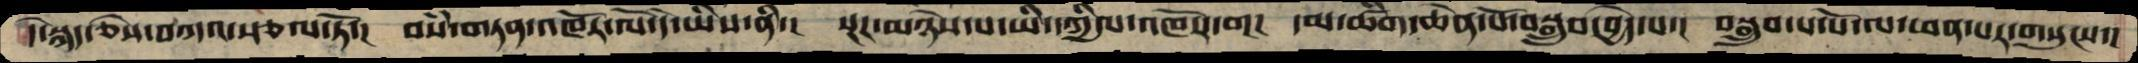དེ་སྐད་ཅེས་བཀའ་སྩལ་ཏོ་།  བསཾ་གཏན་འཁོར་ལོ་དེ་ཡིས་ནི་།  སྔཌ་མཉེས་པ་ཡི་དཀྱིལ་འཁོར་བ།།།  དམ་ཚིག་ཆེན་པོ་བསྒྲུབ་བྱེད་པ་།  བསྒྲུབ་པ་པོ་ལ་ཕན་པར་གསུངས་།
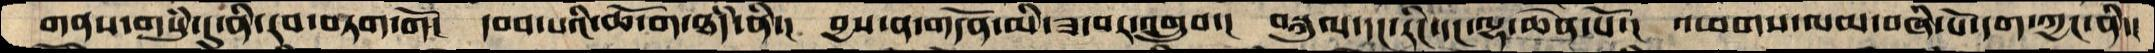གནས་གསུཾ་དུ་ནི་རབ་བཏག་གོ།  དབབ་པའི་ཆོ་ག་ཐཾད་ནི་།  བྱས་ན་གདོན་མི་ཟ་བར་འགྲུབ་།  བསྐུལ་དང་རིང་དང་ལྷ་ཆེན་པོ་།  འཕགས་ལམ་བཞི་པོ་དག་ཀྱང་ནི་།
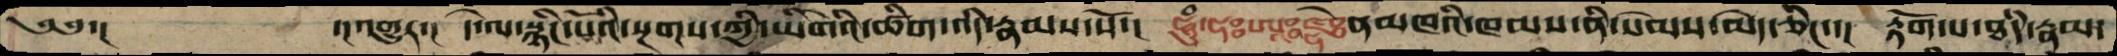༄༅་།     ་། འགྱུར་།  དེ་ལ་སྙིང་པོའི་སྔགས་ཀྱི་ཡིགེའི་ཚིག་འདི་རྣམས་སོ་།  ཧཱུཾ་ཧཿཨཱཿཛྷེཿནམཁའི་ཁམས་ནི་སེམས་མེད་ཅིང་་།  རྟོག་པ་ཐཾད་རྣམ་
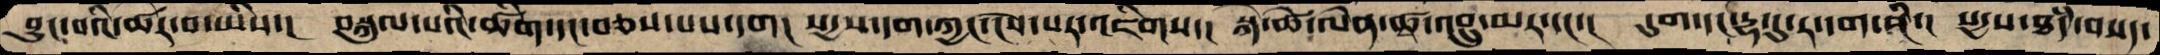བྱུང་བའི་ཚར་བ་ཡིས་།  བསྐུལ་པའི་ཚིག་དང་བཅས་པས་དག།  སདྱས་དག་ཀྱང་ངེས་པར་འཇིགས་།  སྐེ་ཚེ་ལེན་ཚྭ་འབྲུ་མར་དང་།  དུག་དང་དྷ་དུ་ར་དག་ནི་།  སདྱས་ཐཾད་བསད་
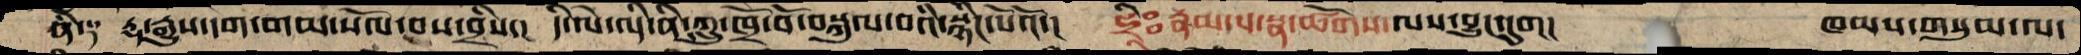ནི༑   རྡ་རྒྱུས་དག་གམ་སོལ་བས་བྲིས་།  དི་ལེ་འདི་ནི་ཀླུ་ཁྲོ་བོ་བསྐུལ་བའི་སྙིང་པོའོ་།   ཧྲཱིཿ རྣམ་པ་སྣ་ཚོགས་ལས་བྱུང་དུག།      ཁམས་གསུམ་ལ་
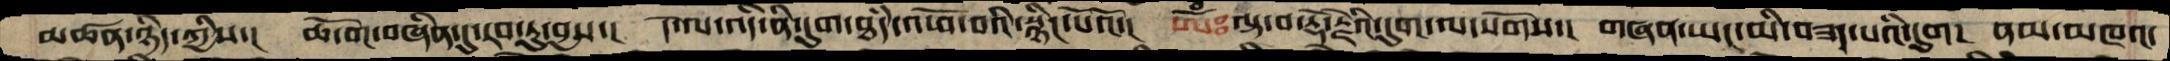མཚན་ཉིད་ཀྱིས་།  ཆོ་ག་བཞིན་དུ་རབ་ཏུ་བྱས་།  དེ་ལ་འདི་ནི་དུག་ཐཾད་འཕོ་བའི་སྙིང་པོའོ་།  ཨོཾ་ལྟ་བ་རྡོ་རྗེའི་དུག་ལ་སོགས་།  གཞན་ཡང་མི་བཟད་པའི་དུག།  ནམ་མཁའ་
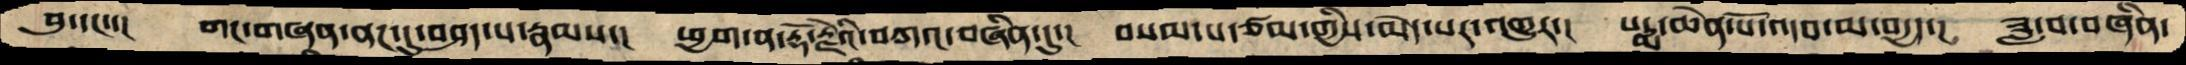བུ་དང་་།  གང་གཞན་ནང་དུ་བཤད་པ་རྣམས་།  ཕྱག་ན་རྡོ་རྗེའི་བཀའ་བཞིན་དུ་།  བསམ་པ་ཙམ་གྱིས་མེད་པར་འགྱུར་།  པདྨ་ཆེན་པོ་འདབ་མ་བདྱད་།  ཟླ་བ་བཞིན་
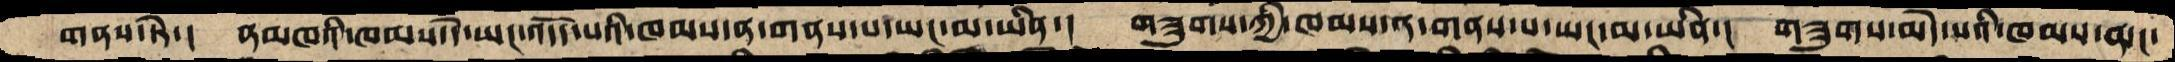གནས་ཏེ་།   ནམཁའི་ཁམས་དེ་ཡང་འདོད་པའི་ཁམས་ན་གནས་པ་ཡང་མ་ཡིན་།   གཟུགས་ཀྱི་ཁམས་ན་གནས་པ་ཡང་མ་ཡིན་།  གཟུགས་མེད་པའི་ཁམས་ན་།
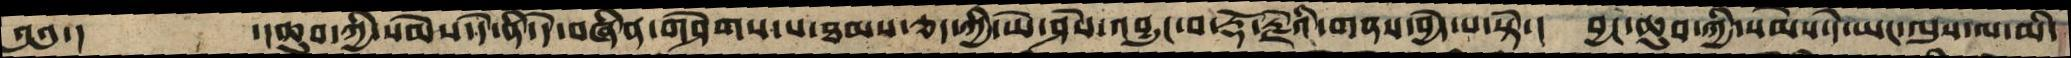༄༅་།        ་།ཆུབ་ཀྱི་སེམས་དེ་ནི་དེ་བཞིན་གཤེགས་པ་ཐམས་ཅད་ཀྱི་ཡེ་ཤེས་འབྱུང་བ་རྡོ་རྗེའི་གནས་བྱེད་པ་སྟེ་།   བྱང་ཆུབ་ཀྱི་སེམས་དེ་ཡང་ལུས་ལ་མི་
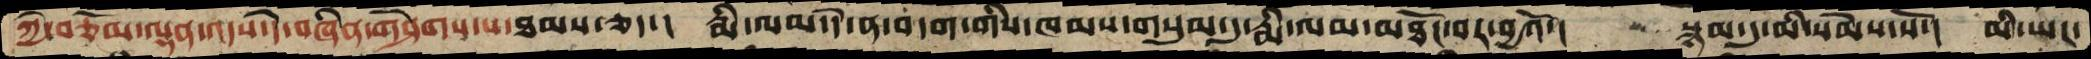ཀྱེ་བཅོམ་ལྡན་འདས་དེ་བཞིན་གཤེགས་པ་ཐམས་ཅད་།   རྨི་ལམ་དེ་ན་བདག་གིས་ཁམས་གསུམ་དུ་རྨི་ལམ་མཐོང་བར་བྱའོ་།  སྙམ་དུ་མི་སེམས་སོ་།  མི་ཡང་
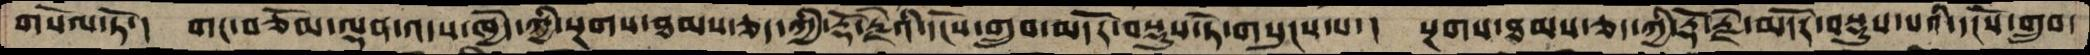གསོལ་ཏོ་།  གང་བཅོམ་ལྡན་འདས་ཁྱེད་ཀྱི་སྔགས་ཐམས་ཅད་ཀྱི་རྡོ་རྗེའི་དངོས་གྲུབ་མདོར་བསྡུས་ཏེ་གསུངས་པ་།  སྔགས་ཐམས་ཅད་ཀྱི་རྡོ་རྗེ་མདོར་བསྡུས་པའི་དངོས་གྲུབ་
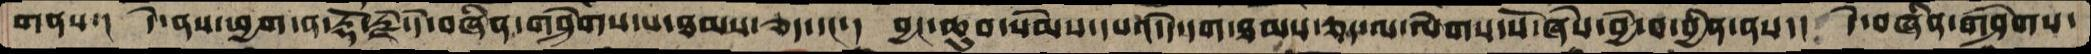གནས་།  དེ་ནས་ཕྱག་ན་རྡོ་རྗེ་དེ་བཞིན་གཤེགས་པ་ཐམས་ཅད་དང་།  བྱང་ཆུབ་སེམས་དཔའ་དེ་དག་ཐམས་ཅད་ལེགས་སོ་ཞེས་བྱེ་བ་བྱིན་ནས་།  དེ་བཞིན་གཤེགས་
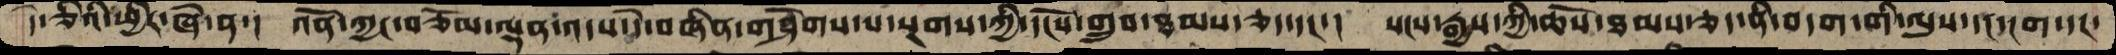དེ་ཅིའི་ཕྱིར་ཞེ་ན་།  འོན་ཀྱང་བཅོམ་ལྡན་འདས་དེ་བཞིན་གཤེགས་པ་སྔགས་ཀྱི་དངོས་གྲུབ་ཐམས་ཅད་དང་་།  སངས་རྒྱས་ཀྱི་ཆོས་ཐམས་ཅད་ནི་བདག་གི་ལུས་དང་ངག་དང་
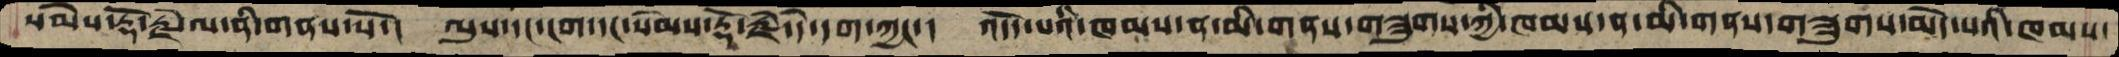སེམས་རྡོ་རྗེ་ལ་ནི་གནས་སོ་།  ལུས་དང་ངག་དང་སེམས་རྡོ་རྗེ་དེ་དག་ཀྱ་།  འོདད་པའི་ཁམས་ན་མི་གནས་གཟུགས་ཀྱི་ཁམས་ན་མི་གནས་གཟུགས་མེད་པའི་ཁམས་
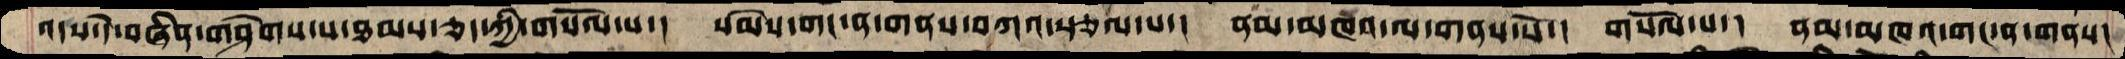འདས་དེ་བཞིན་གཤེགས་པ་ཐམས་ཅད་ཀྱི་གསོལ་པ་།  སེམས་གང་ན་གནས་བཀའ་སྩལ་པ་།  ནམ་མཁའ་ལ་གནས་སོ་།  གསོལ་པ་།  ནམ་མཁའ་གང་ན་གནས།
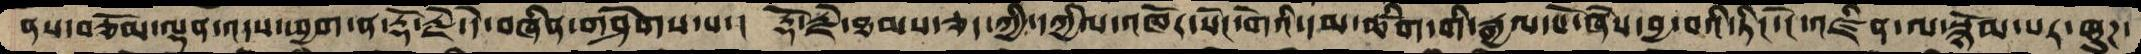ནས་བཅོམ་ལྡན་འདས་ཕྱག་ན་རྡོ་རྗེ་དེ་བཞིན་གཤེགས་པ་།  རྡོ་རྗེ་ཐམས་ཅད་ཀྱི་དཀྱིལ་འཁོར་སེང་གེའི་དམ་ཚིག་གི་རྒྱལ་པོ་ཞེས་བྱ་བའི་ཏིང་ངེ་འཛིན་ལ་སྙོམ་པར་ཞུཌ་
